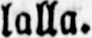lalla.
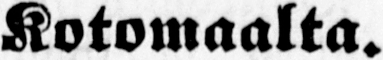Kotomaalta.
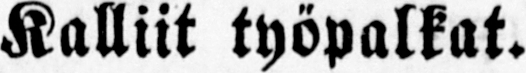Kalliit työpalkat.
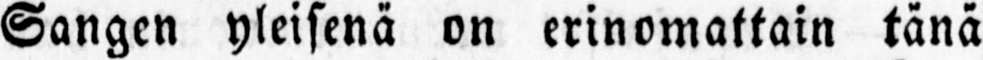Sangen yleisenä on erinomattain tänä
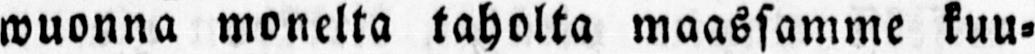wuonna monelta taholta maassamme kuu-
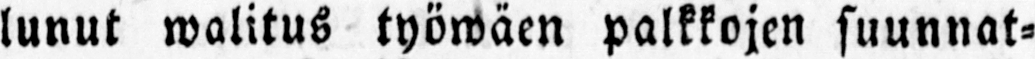lunut walitus työwäen palkkojen suunnat-
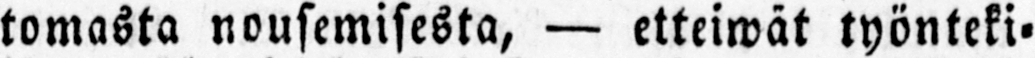tomasta nousemisesta, — etteiwät työnteki-
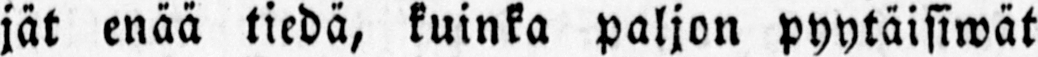jät enää tiedä, kuinka paljon pyytäisiwät
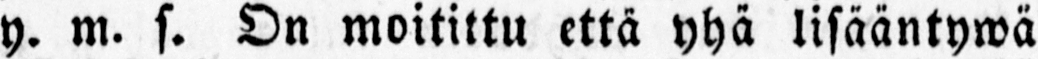y. m. s. On moitittu että yhä lisääntywä
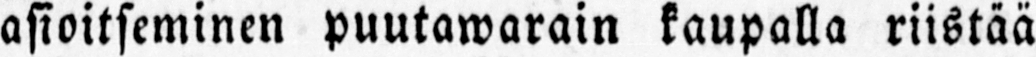asioitseminen puutawarain kaupalla riistää
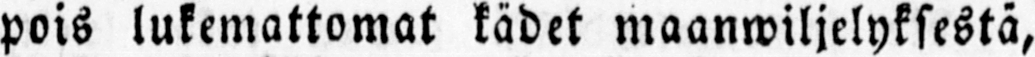pois lukemattomat kädet maanwiljelyksestä,
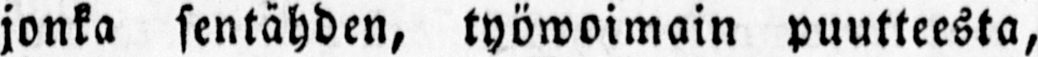jonka sentähden, työwoimain puutteesta,
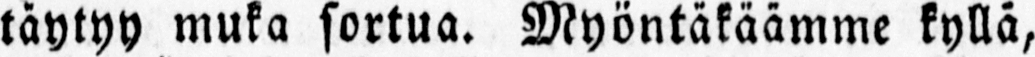täytyy muka sortua. Myöntäkäämme kyllä,
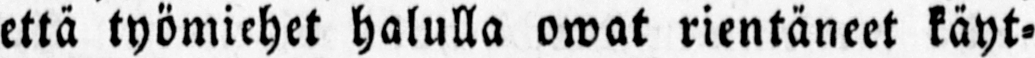että työmiehet halulla owat rientäneet käyt-
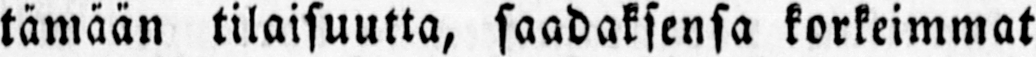tämään tilaisuutta, saadaksensa korkeimmat
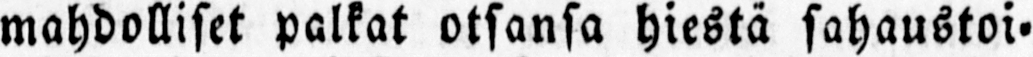mahdolliset palkat otsansa hiestä sahaustoi-
